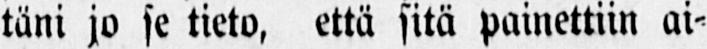täni jo se tieto, että sitä painettiin ai-
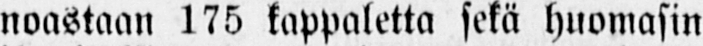noastaan 175 kappaletta sekä huomasin
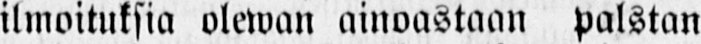ilmoituksia olewan ainoastaan palstan
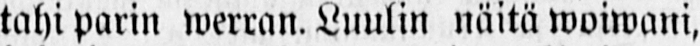tahi parin werran. Luulin näitä woiwani,
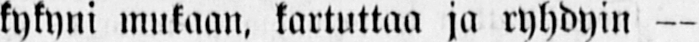kykyni mukaan, kartuttaa ja ryhdyin—
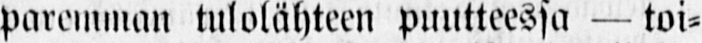Paremman tulolähteen puutteessa —toi-
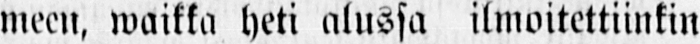meen, waikka heti alussa ilmoitettiinkin
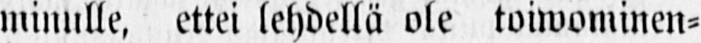minulle, ettei lehdellä ole toiwominen-
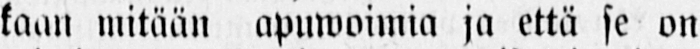kaan mitään apuwoimia ja että se on
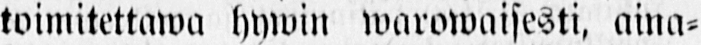toimitettawa hywin warowaisesti, aina-
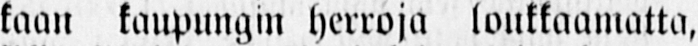kaan kaupungin herroja loukkaamatta,
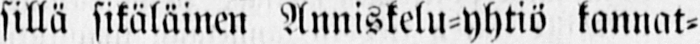sillä sikäläinen Anniskelu-yhtiö kannat-
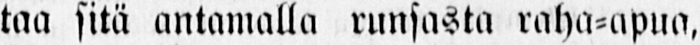taa sitä antamalla runsasta raha-apua,
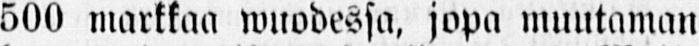500 markkaa wuodessa, jopa muutaman
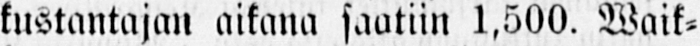kustantajan aikana saatiin 1,500. Waik-
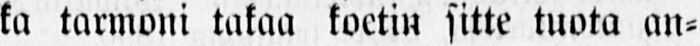ka tarmoni takaa koetin sitte tuota an-
